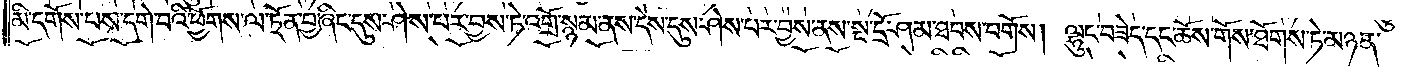མི་དགོས་པས་དགེ་བའི་ཕྱོགས་ལ་ཏྲོན་བྱ་ཞིང་དུས་ཤེས་པར་བྱས་ཏེ་འགྲོ་སྙམ་ནས་དེས་དུས་ཤེས་པར་བྱས་ནས་སྔ་དྲོ་ཤམ་ཐབས་བགོས། ལྷུང་བཟེད་དང་ཆོས་གོས་ཐོགས་ཏེ་མཉན་
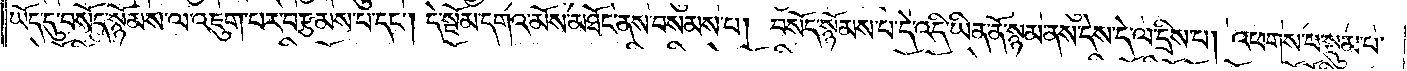ཡོད་དུ་བསོད་སྙོམས་ལ་འཇུག་པར་བརྩམས་པ་དང༌། དེ་སྦོམ་དགའ་མོས་མཐོང་ནས་བསམས་པ། བསོད་སྙོམས་པ་དེ་འདི་ཡིན་ནོ་སྙམ་ནས་དེས་དེ་ལ་དྲིས་པ། འཕགས་པ་སྡུམ་པ་
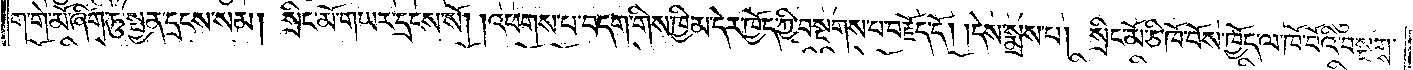ག་གེ་མོ་ཞིག་ཏུ་སྤྱན་དྲངས་སམ། སྲིང་མོ་གཡར་དྲངས་སོ། །འཕགས་པ་བདག་གིས་ཁྱིམ་དེར་ཁྱོད་ཀྱི་བསྔགས་པ་བརྗོད་དོ། །དེས་སྨྲས་པ། སྲིང་མོ་ཅི་ཁོ་བོས་ཁྱོད་ལ་ཁོ་བོའི་བསྔགས་
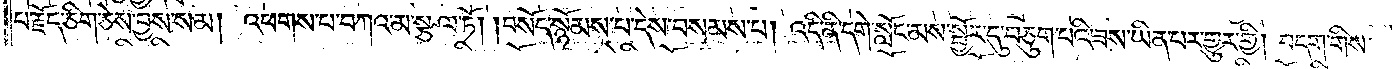པ་རྗོད་ཅིག་ཅེས་བྱས་སམ། འཕགས་པ་བཀའ་མ་སྩལ་ཏོ། །བསོད་སྙོམས་པ་དེས་བསམས་པ། འདི་ནི་དགེ་སློང་མས་སྦྱོར་དུ་བཅུག་པའི་ཟས་ཡིན་པར་གྱུར་གྱི། བདག་གིས་
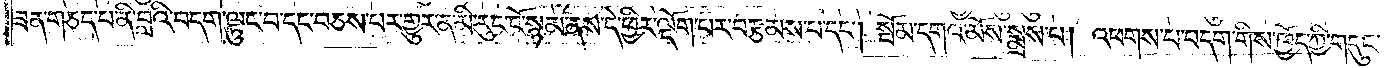ཟན་གཅད་པ་ནི་བླའི་བདག་ལྟུང་བ་དང་བཅས་པར་གྱུར་ན་མི་རུང་ངོ་སྙམ་ནས་དེ་ཕྱིར་ལྡོག་པར་བརྩམས་པ་དང༌། སྦོམ་དགའ་མོས་སྨྲས་པ། འཕགས་པ་བདག་གིས་ཁྱོད་ཀྱི་གདུང་
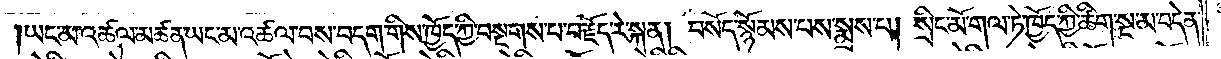ཡང་མ་འཚལ་མཚན་ཡང་མ་འཚལ་བས་བདག་གིས་ཁྱོད་ཀྱི་བསྔགས་པ་བརྗོད་རེ་སྐན། བསོད་སྙོམས་པས་སྨྲས་པ། སྲིང་མོ་གལ་ཏེ་ཁྱོད་ཀྱི་ཚིག་སྔ་མ་བདེན་
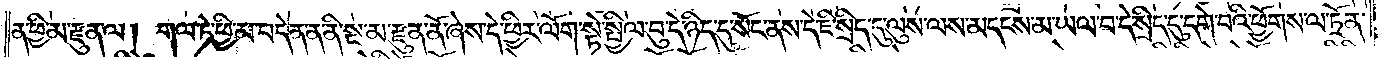ན་ཕྱི་མ་རྫུན་ལ། གལ་ཏེ་ཕྱི་མ་བདེན་ན་ནི་སྔ་མ་རྫུན་ནོ་ཞེས་དེ་ཕྱིར་ལོག་སྟེ་སྤྱིལ་བུ་དེ་ཉིད་དུ་སོང་ནས་དེ་ཇི་སྲིད་དུ་ལུས་ལས་མདངས་མ་ཡལ་བ་དེ་སྲིད་དུ་དགེ་བའི་ཕྱོགས་ལ་ཏྲོན་
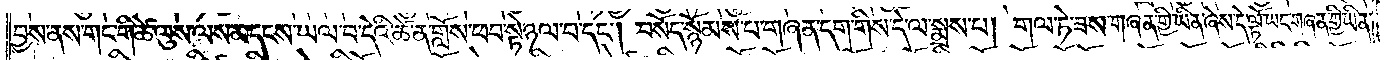བྱས་ནས་གང་གི་ཚེ་ལུས་ལས་མདངས་ཡལ་བ་དེའི་ཚེ་ན་གློས་ཕབ་སྟེ་ཉལ་བ་དང༌། བསོད་སྙོམས་པ་གཞན་དག་གིས་དེ་ལ་སྨྲས་པ། གལ་ཏེ་ཟས་གཞན་གྱི་ཡིན་ཞེས་དེ་ལྟོ་ཡང་གཞན་གྱི་ཡིན་
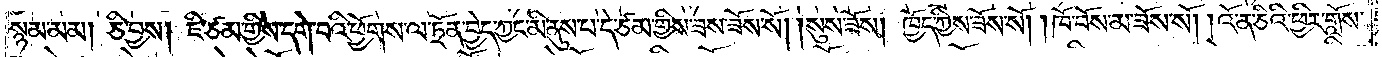སྙམ་མམ། ཅི་བྱས། ཇི་ཙམ་གྱིས་དགེ་བའི་ཕྱོགས་ལ་ཏྲོན་བྱེད་ཀྱང་མི་ནུས་པ་དེ་ཙམ་གྱིས་ཟས་ཟོས་སོ། །སུས་ཟོས། ཁྱོད་ཀྱིས་ཟོས་སོ། །ཁོ་བོས་མ་ཟོས་སོ། །འོ་ན་ཅིའི་ཕྱིར་གློས་
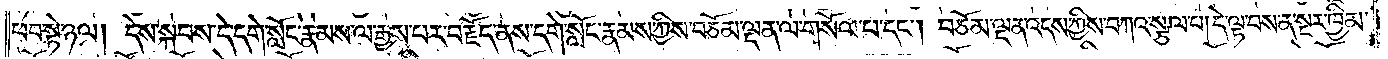ཕབ་སྟེ་ཉལ། དེས་སྐབས་དེ་དགེ་སློང་རྣམས་ལ་རྒྱས་པར་བརྗོད་ནས་དགེ་སློང་རྣམས་ཀྱིས་བཅོམ་ལྡན་ལ་གསོལ་པ་དང༌། བཅོམ་ལྡན་འདས་ཀྱིས་བཀའ་སྩལ་པ། དེ་ལྟ་བས་ན་སྔར་ཁྱིམ་
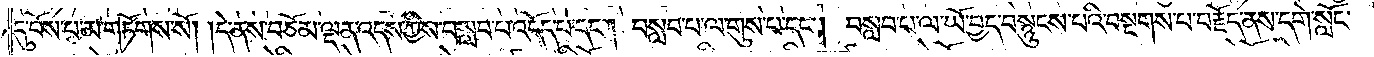དུ་བོས་པ་མ་གཏོགས་སོ། །དེ་ནས་བཅོམ་ལྡན་འདས་ཀྱིས་བསླབ་པ་འདོད་པ་དང༌། བསླབ་པ་ལ་གུས་པ་དང༌། བསླབ་པ་ལ་ཡོ་བྱད་བསྙུངས་པའི་བསྔགས་པ་བརྗོད་ནས་དགེ་སློང་
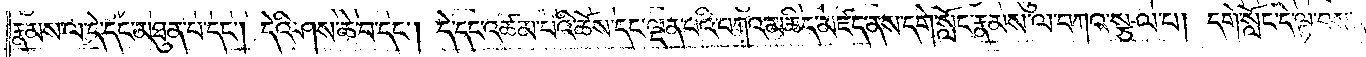རྣམས་ལ་དེ་དང་མཐུན་པ་དང༌། དེའི་ཤས་ཆེ་བ་དང༌། དེ་དང་འཚམ་པའི་ཆོས་དང་ལྡན་པའི་བཀའ་མཆིད་མཛད་ནས་དགེ་སློང་རྣམས་ལ་བཀའ་སྩལ་པ། དགེ་སློང་དེ་ལྟ་བས་ན་
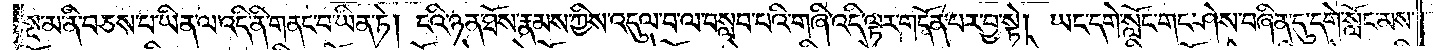སྔ་མ་ནི་བཅས་པ་ཡིན་ལ་འདི་ནི་གནང་བ་ཡིན་ཏེ། ངའི་ཉན་ཐོས་རྣམས་ཀྱིས་འདུལ་བ་ལ་བསླབ་པའི་གཞི་འདི་ལྟར་གདོན་པར་བྱ་སྟེ། ཡང་དགེ་སློང་གང་ཤེས་བཞིན་དུ་དགེ་སློང་མས་
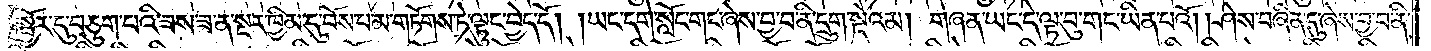སྦྱོར་དུ་བཅུག་པའི་ཟས་ཟ་ན་སྔར་ཁྱིམ་དུ་བོས་པ་མ་གཏོགས་ཏེ་ལྟུང་བྱེད་དོ། །ཡང་དགེ་སློང་གང་ཞེས་བྱ་བ་ནི་དྲུག་སྡེའམ། གཞན་ཡང་དེ་ལྟ་བུ་གང་ཡིན་པའོ། ཤེས་བཞིན་དུ་ཞེས་བྱ་བ་ནི་
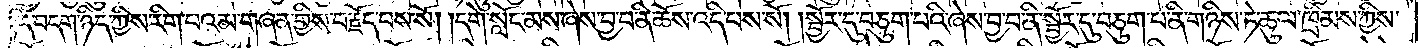དེ་བདག་ཉིད་ཀྱིས་རིག་པའམ་གཞན་གྱིས་བརྗོད་པས་སོ། །དགེ་སློང་མས་ཞེས་བྱ་བ་ནི་ཆོས་འདི་པས་སོ། །སྦྱོར་དུ་བཅུག་པའི་ཞེས་བྱ་བ་ནི་སྦྱོར་དུ་བཅུག་པ་ནི་གཉིས་ཏེ་ཚུལ་ཁྲིམས་ཀྱིས་
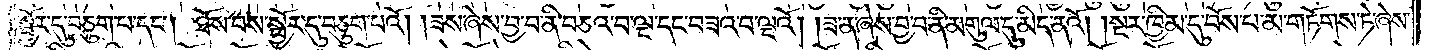སྦྱོར་དུ་བཅུག་པ་དང༌། ཐོས་བས་སྤྱོར་དུ་བཅུག་པའོ། །ཟས་ཞེས་བྱ་བ་ནི་བཅའ་བ་ལྔ་དང་བཟའ་བ་ལྔའོ། །ཟ་ན་ཞེས་བྱ་བ་ནི་མགུལ་དུ་མིད་ནའོ། །སྔར་ཁྱིམ་དུ་བོས་པ་མ་གཏོགས་ཏེ་ཞེས་
